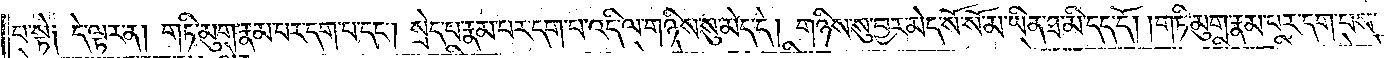པ་སྟེ༑ དེ་ལྟར་ན། གཏི་མུག་རྣམ་པར་དག་པ་དང༌། སྲེད་པ་རྣམ་པར་དག་པ་འདི་ལ་གཉིས་སུ་མེད་དེ། གཉིས་སུ་བྱར་མེད་སོ་སོ་མ་ཡིན་ཐ་མི་དད་དོ། །གཏི་མུག་རྣམ་པར་དག་པས་
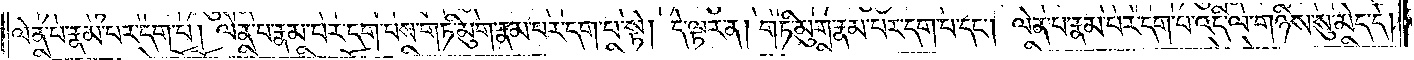ལེན་པ་རྣམ་པར་དག་པ། ལེན་པ་རྣམ་པར་དག་པས་གཏི་མུག་རྣམ་པར་དག་པ་སྟེ། དེ་ལྟར་ན། གཏི་མུག་རྣམ་པར་དག་པ་དང༌། ལེན་པ་རྣམ་པར་དག་པ་འདི་ལ་གཉིས་སུ་མེད་དེ།
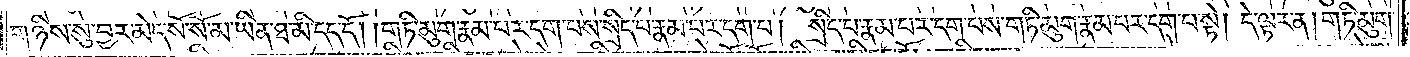གཉིས་སུ་བྱར་མེད་སོ་སོ་མ་ཡིན་ཐ་མི་དད་དོ། །གཏི་མུག་རྣམ་པར་དག་པས་སྲིད་པ་རྣམ་པར་དག་པ། སྲིད་པ་རྣམ་པར་དག་པས་གཏི་མུག་རྣམ་པར་དག་པ་སྟེ། དེ་ལྟར་ན། གཏི་མུག་
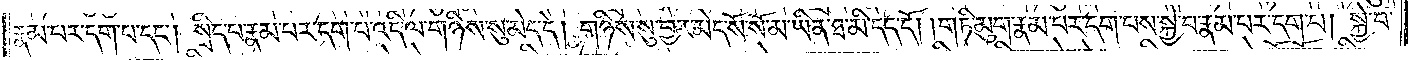རྣམ་པར་དག་པ་དང༌། སྲིད་པ་རྣམ་པར་དག་པ་འདི་ལ་གཉིས་སུ་མེད་དེ། གཉིས་སུ་བྱར་མེད་སོ་སོ་མ་ཡིན་ཐ་མི་དད་དོ། །གཏི་མུག་རྣམ་པར་དག་པས་སྐྱེ་བ་རྣམ་པར་དག་པ། སྐྱེ་བ་
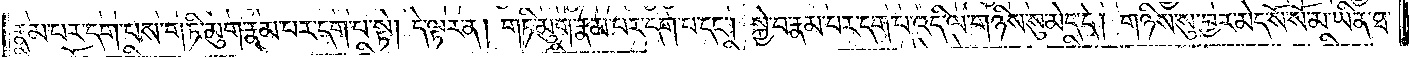རྣམ་པར་དག་པས་གཏི་མུག་རྣམ་པར་དག་པ་སྟེ། དེ་ལྟར་ན། གཏི་མུག་རྣམ་པར་དག་པ་དང༌། སྐྱེ་བ་རྣམ་པར་དག་པ་འདི་ལ་གཉིས་སུ་མེད་དེ། གཉིས་སུ་བྱར་མེད་སོ་སོ་མ་ཡིན་ཐ་
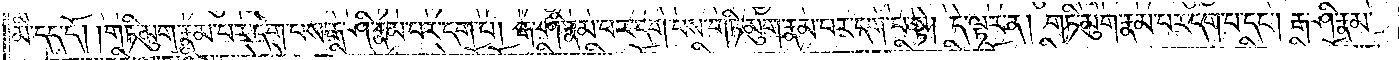མི་དད་དོ། །གཏི་མུག་རྣམ་པར་དག་པས་རྒ་ཤི་རྣམ་པར་དག་པ། རྒ་ཤི་རྣམ་པར་དག་པས་གཏི་མུག་རྣམ་པར་དག་པ་སྟེ། དེ་ལྟར་ན། གཏི་མུག་རྣམ་པར་དག་པ་དང༌། རྒ་ཤི་རྣམ་
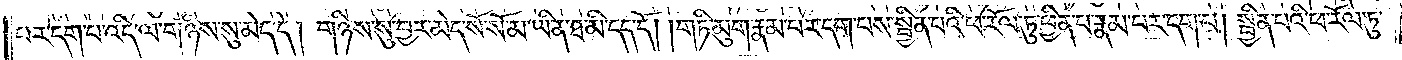པར་དག་པ་འདི་ལ་གཉིས་སུ་མེད་དེ། གཉིས་སུ་བྱར་མེད་སོ་སོ་མ་ཡིན་ཐ་མི་དད་དོ། །གཏི་མུག་རྣམ་པར་དག་པས་སྦྱིན་པའི་ཕ་རོལ་ཏུ་ཕྱིན་པ་རྣམ་པར་དག་པ། སྦྱིན་པའི་ཕ་རོལ་ཏུ་
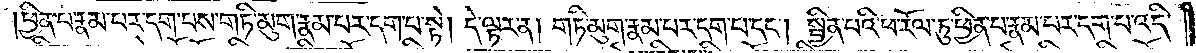ཕྱིན་པ་རྣམ་པར་དག་པས་གཏི་མུག་རྣམ་པར་དག་པ་སྟེ། དེ་ལྟར་ན། གཏི་མུག་རྣམ་པར་དག་པ་དང༌། སྦྱིན་པའི་ཕ་རོལ་ཏུ་ཕྱིན་པ་རྣམ་པར་དག་པ་འདི་
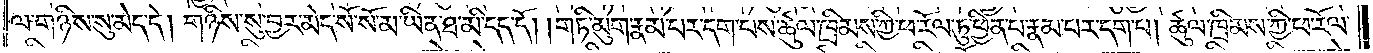ལ་གཉིས་སུ་མེད་དེ། གཉིས་སུ་བྱར་མེད་སོ་སོ་མ་ཡིན་ཐ་མི་དད་དོ། །གཏི་མུག་རྣམ་པར་དག་པས་ཚུལ་ཁྲིམས་ཀྱི་ཕ་རོལ་ཏུ་ཕྱིན་པ་རྣམ་པར་དག་པ། ཚུལ་ཁྲིམས་ཀྱི་ཕ་རོལ་
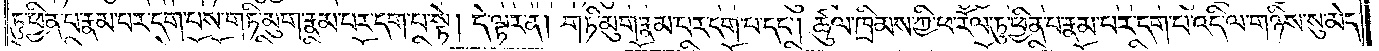ཏུ་ཕྱིན་པ་རྣམ་པར་དག་པས་གཏི་མུག་རྣམ་པར་དག་པ་སྟེ། དེ་ལྟར་ན། གཏི་མུག་རྣམ་པར་དག་པ་དང༌། ཚུལ་ཁྲིམས་ཀྱི་ཕ་རོལ་ཏུ་ཕྱིན་པ་རྣམ་པར་དག་པ་འདི་ལ་གཉིས་སུ་མེད་
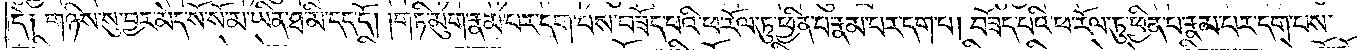དེ༑ གཉིས་སུ་བྱར་མེད་སོ་སོ་མ་ཡིན་ཐ་མི་དད་དོ། །གཏི་མུག་རྣམ་པར་དག་པས་བཟོད་པའི་ཕ་རོལ་ཏུ་ཕྱིན་པ་རྣམ་པར་དག་པ། བཟོད་པའི་ཕ་རོལ་ཏུ་ཕྱིན་པ་རྣམ་པར་དག་པས་
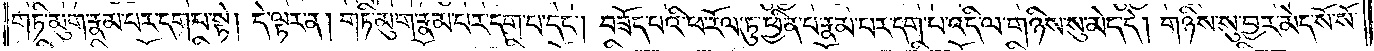གཏི་མུག་རྣམ་པར་དག་པ་སྟེ། དེ་ལྟར་ན། གཏི་མུག་རྣམ་པར་དག་པ་དང༌། བཟོད་པའི་ཕ་རོལ་ཏུ་ཕྱིན་པ་རྣམ་པར་དག་པ་འདི་ལ་གཉིས་སུ་མེད་དེ། གཉིས་སུ་བྱར་མེད་སོ་སོ་
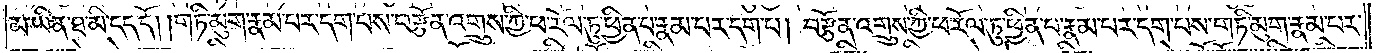མ་ཡིན་ཐ་མི་དད་དོ། །གཏི་མུག་རྣམ་པར་དག་པས་བརྩོན་འགྲུས་ཀྱི་ཕ་རོལ་ཏུ་ཕྱིན་པ་རྣམ་པར་དག་པ། བརྩོན་འགྲུས་ཀྱི་ཕ་རོལ་ཏུ་ཕྱིན་པ་རྣམ་པར་དག་པས་གཏི་མུག་རྣམ་པར་
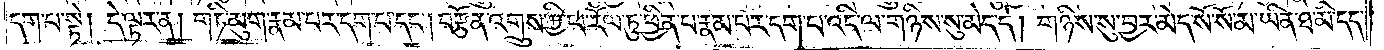དག་པ་སྟེ། དེ་ལྟར་ན། གཏི་མུག་རྣམ་པར་དག་པ་དང༌། བརྩོན་འགྲུས་ཀྱི་ཕ་རོལ་ཏུ་ཕྱིན་པ་རྣམ་པར་དག་པ་འདི་ལ་གཉིས་སུ་མེད་དེ། གཉིས་སུ་བྱར་མེད་སོ་སོ་མ་ཡིན་ཐ་མི་དད་
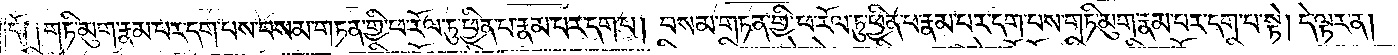དོ༑ ༑གཏི་མུག་རྣམ་པར་དག་པས་བསམ་གཏན་གྱི་ཕ་རོལ་ཏུ་ཕྱིན་པ་རྣམ་པར་དག་པ། བསམ་གཏན་གྱི་ཕ་རོལ་ཏུ་ཕྱིན་པ་རྣམ་པར་དག་པས་གཏི་མུག་རྣམ་པར་དག་པ་སྟེ། དེ་ལྟར་ན།
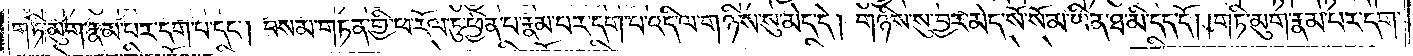གཏི་མུག་རྣམ་པར་དག་པ་དང༌། བསམ་གཏན་གྱི་ཕ་རོལ་ཏུ་ཕྱིན་པ་རྣམ་པར་དག་པ་འདི་ལ་གཉིས་སུ་མེད་དེ། གཉིས་སུ་བྱར་མེད་སོ་སོ་མ་ཡིན་ཐ་མི་དད་དོ། །གཏི་མུག་རྣམ་པར་དག་
